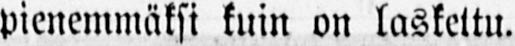pienemmäksi kuin on laskettu.
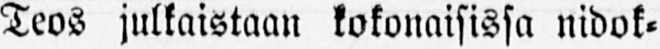Teos julkaistaan kokonaisissa nidok-
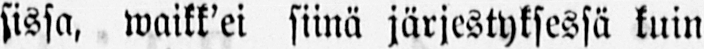sissa, waikk'ei siinä järjestyksessä kuin
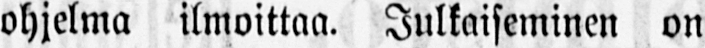ohjelma ilmoittaa. Julkaiseminen on
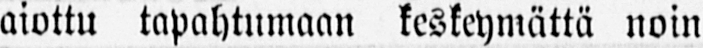aiottu tapahtumaan keskeymättä noin
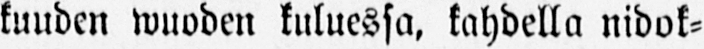kuuden wuoden kuluessa, kahdella nidok-
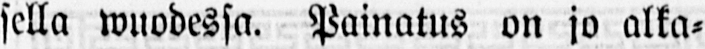sella wuodessa. Painatus on jo alka-
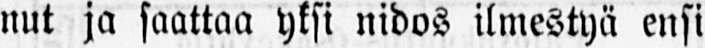nut ja saattaa yksi nidos ilmestyä ensi
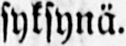syksynä.
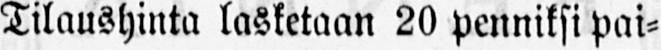Tilaushinta lasketaan 20 penniksi pai-
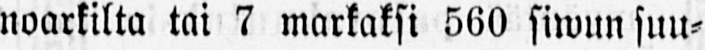noarkilta tai 7 markaksi 560 siwun suu-
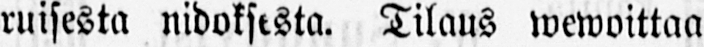ruisesta nidoksista. Tilaus wewoittaa
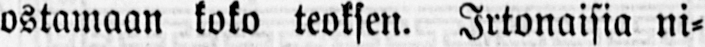ostamaan koko teoksen. Irtonaisia ni-
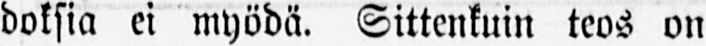doksia ei myödä. Sittenkuin teos on
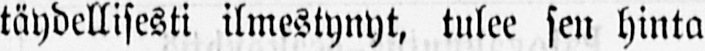täydellisesti ilmestynyt, tulee sen hinta
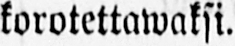korotettawaksi.
